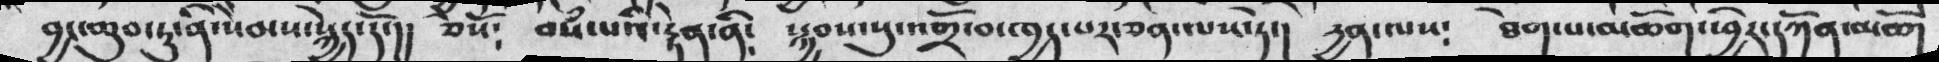བྱང་ཆུབ་ཏུ་ནི་སེམས་སྐྱེད་དོ་།།  ཅེསོ༴   བསཾ་པའི་རྟེན་ནི༴  སྐྱབས་སུ་འགྲོ་བ་ཁྱད་པར་ཅར་ལས་ཏེ་།  དྱན་ལས༴  ཐེག་པ་མཆོག་ཕྱེད་དཀོན་མཆོ
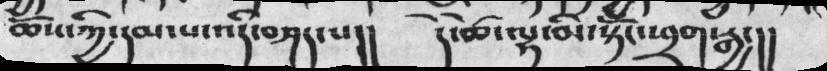ཆོས་ཀྱི་དམ་པ་འདི་བཤད་པ།།  དེ་ཚེ་ལྷ་མི་སྟོང་ཕྲག་རྒྱ་།།
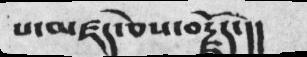པ་མཛད་ཅེས་བརྗོད་།།
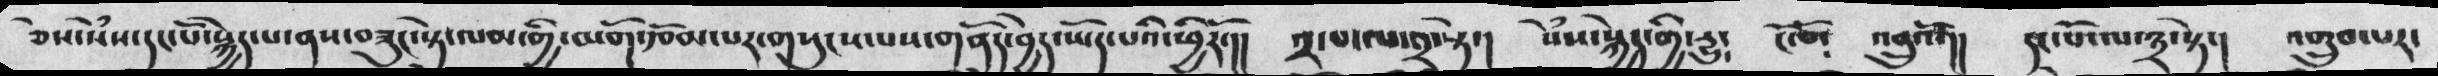ཅེས་སེཾས་དང་པོ་སྐྱེད་ནས་བཟུང་སྟེ་ལམ་གྱི་མགོ་རྩོམ་པར་གསུངས་པས་གནོད་བྱེད་ཡོད་པའི་ཕྱིརོ་།།  ༢་པ་ལ་༢་སྟེ་།  སེཾས་སྐྱེད་གྱི་རྱུ༴  ངོ་བོ༴  འབྲུའོ་།།  དང་པོ་ལ་༣་སྟེ་།  འགྲུབ་པར་
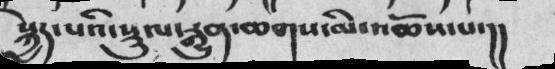སྐྱེད་པའི་སྡུལ་རྒྱུར་ཆགས་མི་འཆོས་པ་།།
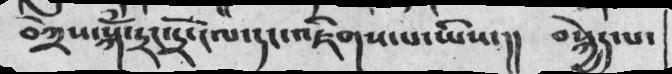བཀྲེས་སྐོཾ་དྲང་དྲོང་ངལ་དང་འཇིགས་པ་ཡིས་།།  བསྐྱེད་པ་
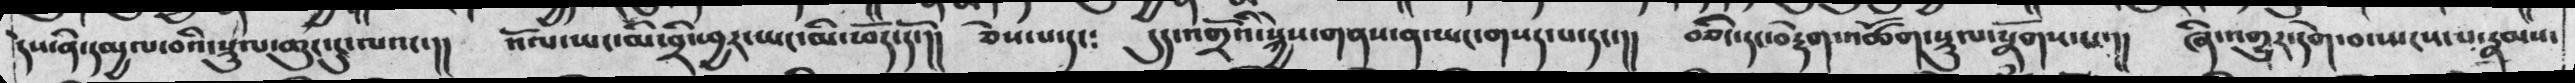དེས་ནི་མྱལ་བའི་སྡུལ་ཆུང་ངུ་ལའང་།།  འོལ་ཡང་མི་བྲི་ཕྱར་ཡང་མི་ཕོད་དོ་།།  ཅེས་པ་དང༴  དུད་འགྲོའི་སྐྱེས་གནས་ན་ཡང་གསར་པ་དང་།།  བཅིང་དང་བརྟེག་འཚོག་སྡུལ་སྲོགས་པ་།།  ཞི་འགྱུར་དགེ་བ་སྤངས་པ་རྣམས་
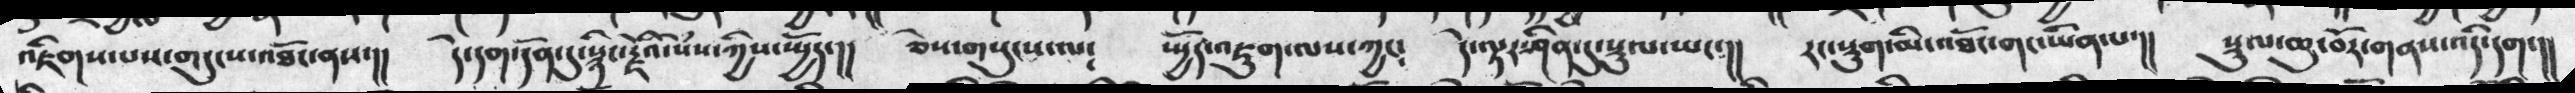འཇིགས་པས་གདུངས་འཐོང་ནས་།།   དེ་དག་དོན་དུ་སྙིང་རྗེའི་སེཾས་ཀྱིས་སྤྱོད་།།  ཅེས་གསུངས་ལ༴  སྤྱོད་འཇུག་ལས་ཀྱང༴  དེ་ལྟར་ཤིན་དུ་སྡུལ་ཡང་།།  རང་སྡུག་མི་འཐོང་གང་ཡིན་པ་།།  སྡུལ་ཆུ་བོར་གནས་འདི་དག་།།
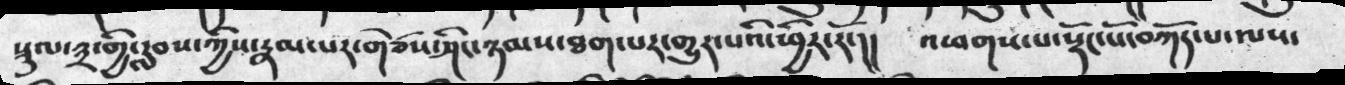སྡུལ་༣་གྱི་རླབས་ཀྱིས་རྣམ་པར་གཙོས་ཤིང་ཉམས་ཐག་པར་གྱུར་པའི་ཕྱིར་རོ་།།  འཕགས་པ་སྡོང་པོ་བཀོད་པ་ལས༴
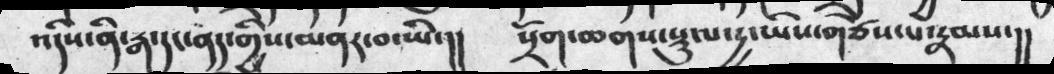འདིས་ནི་རྒ་དང་ནད་གྱིས་མནར་བ་ཡི་།།  སྲོག་ཆགས་སྡུལ་དྱ་ཡིས་གཅེས་པ་རྣམས་།།
